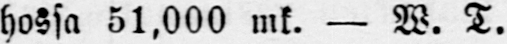hossa 51,000 mk. — W. T.
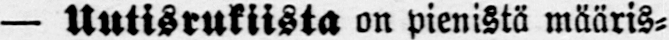— Uutisrukiista on pienistä määris-
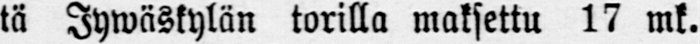tä Jywäskylän torilla maksettu 17 mk.
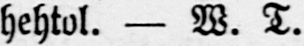hehtol. — W. T.
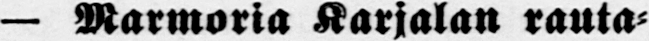— Marmoria Karjalan rauta-
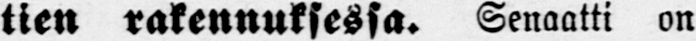tien rakennuksessa. Senaatti on
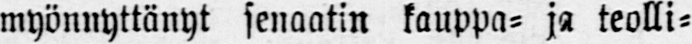myönnyttänyt senaatin kauppa- ja teolli-
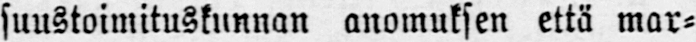suustoimituskunnan anomuksen että mar-
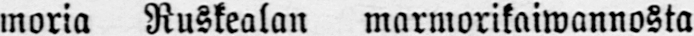moria Ruskealan marmorikaiwannosta
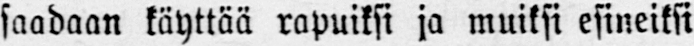saadaan käyttää rapuiksi ja muiksi esineiksi
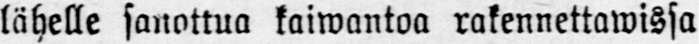lähelle sanottua kaiwantoa rakennettawissa
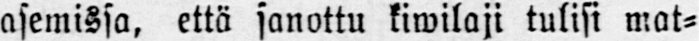asemissa, että sanottu kiwilaji tulisi mat-
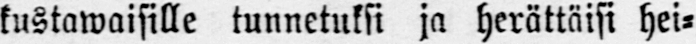kustawaisille tunnetuksi ja herättäisi hei-
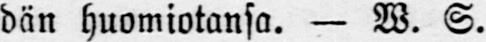dän huomiotansa. — W. S.
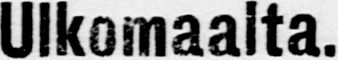Ulkomaalta.
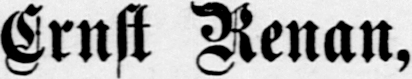Ernst Renan,
